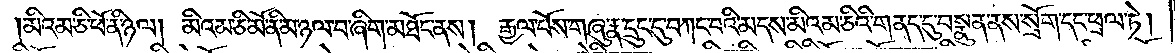མིའམ་ཅི་ཕོ་ནི་ཉལ། མིའམ་ཅི་མོ་ནི་མ་ཉལ་བ་ཞིག་མཐོང་ནས། རྒྱལ་པོས་གཞུ་རྣ་དྲུང་དུ་བཀང་བའི་མདས་མིའམ་ཅིའི་གནད་དུ་བསྣུན་ནས་སྲོག་དང་ཕྲལ་ཏེ།
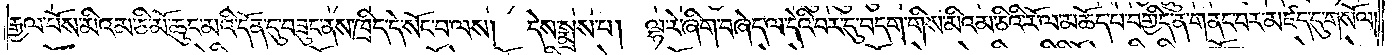རྒྱལ་པོས་མིའམ་ཅི་མོ་ཆུང་མའི་དོན་དུ་བཟུང་ནས་ཁྲིད་དེ་སོང་བ་ལས། དེས་སྨྲས་པ། ལྷ་རེ་ཞིག་བཞེད་ལ་དེའི་བར་དུ་བདག་གིས་མིའམ་ཅིའི་རོ་ལ་མཆོད་པ་བགྱིད་ན་གནང་བར་མཛད་དུ་གསོལ།
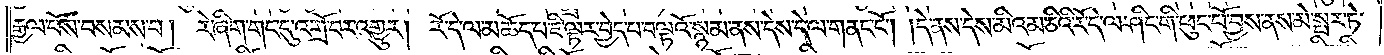རྒྱལ་པོས་བསམས་པ། རེ་ཞིག་གང་དུ་འགྲོ་བར་འགྱུར། རོ་དེ་ལ་མཆོད་པ་ཇི་ལྟར་བྱེད་པ་བལྟའོ་སྙམ་ནས་དེས་དེ་ལ་གནང་ངོ༌། །དེ་ནས་དེས་མིའམ་ཅིའི་རོ་དེ་ལ་ཤིང་གི་ཕུང་པོ་བྱས་ནས་མེ་སྤར་ཏེ་
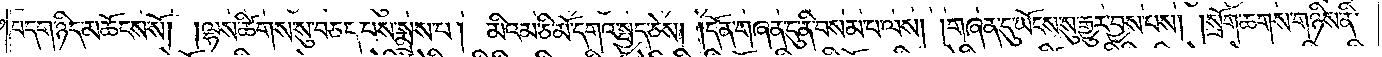བདག་ཉིད་མཆོངས་སོ། །ལྷས་ཚིགས་སུ་བཅད་པས་སྨྲས་པ། མིའམ་ཅི་མོ་དགའ་སྤྱད་ཅེས། །དོན་གཞན་དུ་ནི་བསམ་པ་ལས། །གཞན་དུ་ཡོངས་སུ་རྒྱུར་བྱས་པས། །སྲོག་ཆགས་གཉིས་ནི་
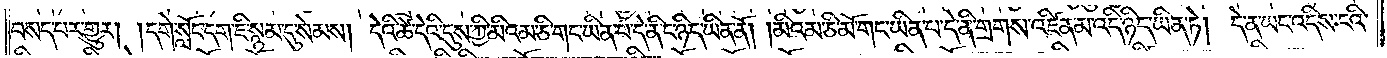བསད་པར་གྱུར། །དགེ་སློང་དག་ཇི་སྙམ་དུ་སེམས། དེའི་ཚེ་དེའི་དུས་ཀྱི་མིའམ་ཅི་གང་ཡིན་པ་དེ་ནི་ང་ཉིད་ཡིན་ནོ། །མིའམ་ཅི་མོ་གང་ཡིན་པ་དེ་ནི་གྲགས་འཛིན་མ་འདི་ཉིད་ཡིན་ཏེ། དེ་ན་ཡང་འདིས་ངའི་
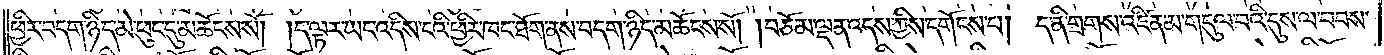ཕྱིར་བདག་ཉིད་མེ་ཕུང་དུ་མཆོངས་སོ། །ད་ལྟར་ཡང་འདིས་ངའི་ཕྱིར་ཁང་ཐོག་ནས་བདག་ཉིད་མཆོངས་སོ། །བཅོམ་ལྡན་འདས་ཀྱིས་དགོངས་པ། ད་ནི་གྲགས་འཛིན་མ་གདུལ་བའི་དུས་ལ་བབས་
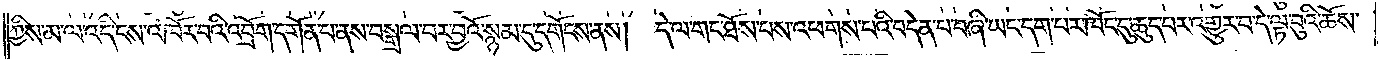ཀྱིས་མ་ལ་འདི་ངས་འཁོར་བའི་འབྲོག་དགོན་པ་ནས་བསྒྲལ་བར་བྱའོ་སྙམ་དུ་དགོངས་ནས། དེ་ལ་གང་ཐོས་པས་འཕགས་པའི་བདེན་པ་བཞི་ཡང་དག་པར་ཁོང་དུ་ཆུད་པར་འགྱུར་བ་དེ་ལྟ་བུའི་ཆོས་
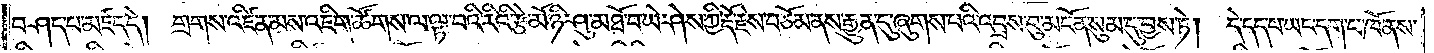བཤད་པ་མཛད་དེ། གྲགས་འཛིན་མས་འཇིག་ཚོགས་ལ་ལྟ་བའི་རིའི་རྩེ་མོ་ཉི་ཤུ་མཐོ་བ་ཡེ་ཤེས་ཀྱི་རྡོ་རྗེས་བཅོམ་ནས་རྒྱུན་དུ་ཞུགས་པའི་འབྲས་བུ་མངོན་སུམ་དུ་བྱས་ཏེ། དེ་དད་པ་ཡང་དག་པ་ཁོ་ནས་
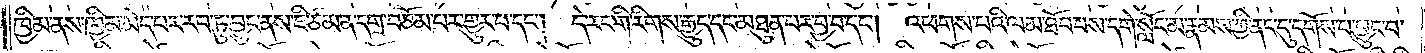ཁྱིམ་ནས་ཁྱིམ་མེད་པར་རབ་ཏུ་བྱུང་ནས་ཇི་ཙམ་ན་དགྲ་བཅོམ་པར་གྱུར་པ་དང༌། དེ་རང་གི་རིགས་རྒྱུད་དང་མཐུན་པར་བྱ་བ་དང༌། འཕགས་པའི་ལམ་ཐོབ་པས་དགེ་སློང་མ་རྣམས་ཀྱི་ནང་དུ་དགོས་པ་བྱུང་བ་
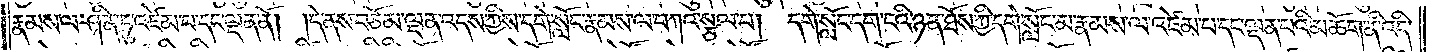རྣམས་ལ་ཤིན་ཏུ་འཛེམ་པ་དང་ལྡན་ནོ། །དེ་ནས་བཅོམ་ལྡན་འདས་ཀྱིས་དགེ་སློང་རྣམས་ལ་བཀའ་སྩལ་པ། དགེ་སློང་དག་ངའི་ཉན་ཐོས་ཀྱི་དགེ་སློང་མ་རྣམས་ལ་འཛེམ་པ་དང་ལྡན་པའི་མཆོག་ནི་འདི་
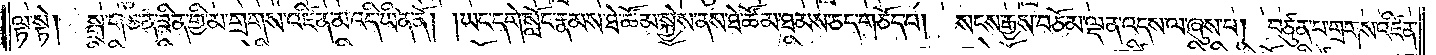ལྟ་སྟེ། སྒྲ་གཅན་ཟིན་གྱི་མ་གྲགས་འཛིན་མ་འདི་ཡིན་ནོ། །ཡང་དགེ་སློང་རྣམས་ཐེ་ཚོམ་སྐྱེས་ནས་ཐེ་ཚོམ་ཐམས་ཅད་གཅོད་པ། སངས་རྒྱས་བཅོམ་ལྡན་འདས་ལ་ཞུས་པ། བཙུན་པ་གྲགས་འཛིན་
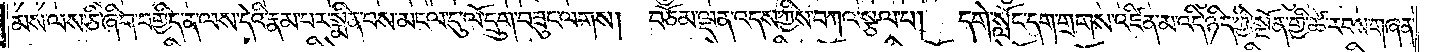མས་ལས་ཅི་ཞིག་བགྱིད་ན་ལས་དེའི་རྣམ་པར་སྨིན་པས་མངལ་དུ་ལོ་དྲུག་བཟུང་ལགས། བཅོམ་ལྡན་འདས་ཀྱིས་བཀའ་སྩལ་པ། དགེ་སློང་དག་གྲགས་འཛིན་མ་འདི་ཉིད་ཀྱི་སྔོན་གྱི་ཚེ་རབས་གཞན་
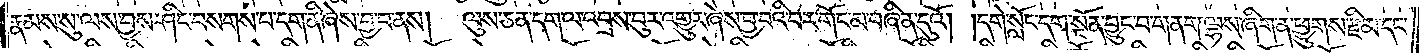རྣམས་སུ་ལས་བྱས་ཤིང་བསགས་པ་དག་ནི་ཞེས་བྱ་བ་ནས། ལུས་ཅན་དག་ལ་འབྲས་བུར་འགྱུར་ཞེས་བྱ་བའི་བར་གོང་མ་བཞིན་དུའོ། །དགེ་སློང་དག་སྔོན་བྱུང་བ་གནག་ལྷས་ཞིག་ན་ཕྱུགས་རྫི་མ་དང་
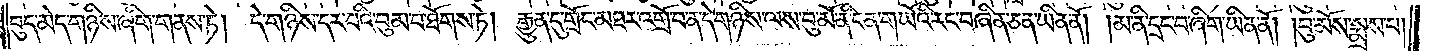བུད་མེད་གཉིས་ཞིག་གནས་ཏེ། དེ་གཉིས་དར་བའི་བུམ་པ་ཐོགས་ཏེ། རྒྱུན་དུ་གྲོང་མཐར་འགྲོ་བ་ན་དེ་གཉིས་ལས་བུ་མོ་ནི་ངན་གཡོའི་རང་བཞིན་ཅན་ཡིན་ནོ། །མ་ནི་དྲང་བ་ཞིག་ཡིན་ནོ། །བུ་མོས་སྨྲས་པ།
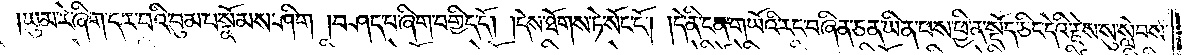ཡུམ་རེ་ཞིག་དར་བའི་བུམ་པ་སྣོམས་ཤིག །བཤད་པ་ཞིག་བགྱིད་དོ། །དེས་ཐོགས་ཏེ་སོང་ངོ༌། །དེ་ནི་ངན་གཡོའི་རང་བཞིན་ཅན་ཡིན་པས་ཕྱི་ན་སྡོད་ཅིང་དེའི་རྗེས་སུ་སླེབས་
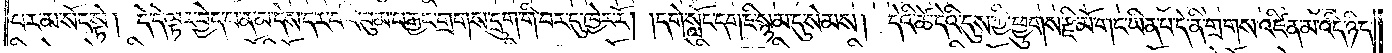པར་མ་སོང་སྟེ། དེ་དེ་ལྟར་བྱེད་པ་ན་མ་དེས་དར་བའི་བུམ་པ་རྒྱང་གྲགས་དྲུག་གི་བར་དུ་ཁྱེར་རོ། །དགེ་སློང་དག་ཇི་སྙམ་དུ་སེམས། དེའི་ཚེ་དེའི་དུས་ཀྱི་ཕྱུགས་རྫི་མོ་གང་ཡིན་པ་དེ་ནི་གྲགས་འཛིན་མ་འདི་ཉིད་
